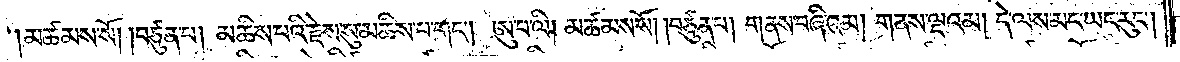།མཚམས་སོ། །བཙུན་པ། མཆིས་པའི་རྗེས་སུ་མཆིས་པ་གང༌། ཨུ་པ་ལི། མཚམས་སོ། །བཙུན་པ། གནས་བཞིའམ། གནས་ལྔའམ། དེ་ལས་མང་ཡང་རུང༌།
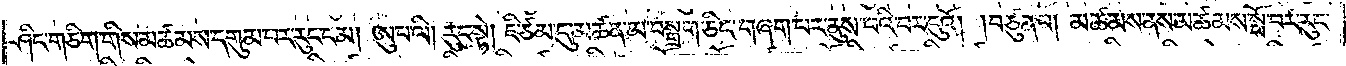ཤིང་གཅིག་གིས་མཚམས་དགུམ་པར་རུང་ངམ། ཨུ་པ་ལི། རུང་སྟེ། ཇི་ཙམ་དུ་མཚན་མ་བསྒྲག་ཅིང་གཞག་པར་ནུས་པའི་བར་དུའོ། །བཙུན་པ། མཚམས་ནས་མཚམས་སྤོ་བར་རུང་
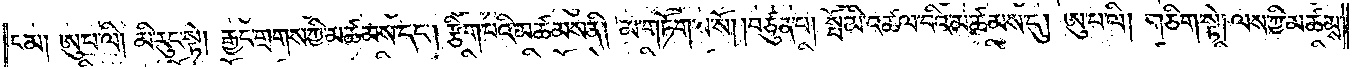ངམ། ཨུ་པ་ལི། མི་རུང་སྟེ། རྒྱང་གྲགས་ཀྱི་མཚམས་དང༌། རྩིག་པའི་མཚམས་ནི། མ་གཏོགས་སོ། །བཙུན་པ། སྤོ་མི་འཚལ་བའི་མཚམས་དུ། ཨུ་པ་ལི། གཅིག་སྟེ། ལས་ཀྱི་མཚམས་
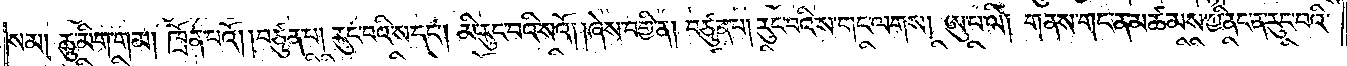སམ། ཆུ་མིག་གམ། ཁྲོན་པའོ། །བཙུན་པ། རུང་བའི་ས་དང༌། མི་རུང་བའི་སའོ། །ཞེས་བགྱི་ན། བཙུན་པ། རུང་བའི་ས་གང་ལགས། ཨུ་པ་ལི། གནས་གང་ན་མཚམས་ཀྱི་ནང་ན་རུང་བའི་
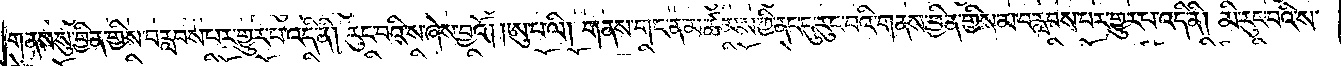གནས་སུ་བྱིན་གྱིས་བརླབས་པར་གྱུར་པ་འདི་ནི། རུང་བའི་ས་ཞེས་བྱའོ། །ཨུ་པ་ལི། གནས་གང་ན་མཚམས་ཀྱི་ནང་དུ་རུང་བའི་གནས་བྱིན་གྱིས་མ་བརླབས་པར་གྱུར་པ་འདི་ནི། མི་རུང་བའི་ས་
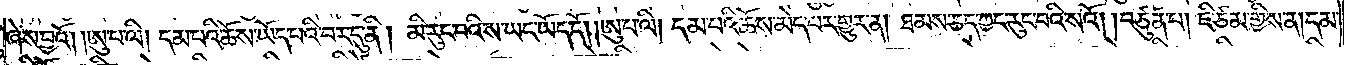ཞེས་བྱའོ། །ཨུ་པ་ལི། དམ་པའི་ཆོས་ཡོད་པའི་བར་དུ་ནི། མི་རུང་བའི་ས་ཡང་ཡོད་དོ། །ཨུ་པ་ལི། དམ་པའི་ཆོས་མེད་པར་གྱུར་ན། ཐམས་ཅད་ཀྱང་རུང་བའི་སའོ། །བཙུན་པ། ཇི་ཙམ་གྱིས་ན། དམ་
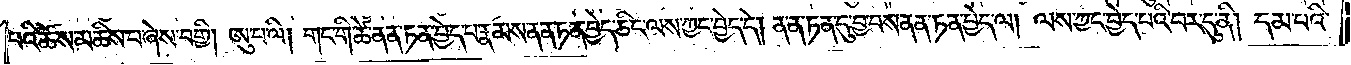པའི་ཆོས་མཆིས་པ་ཞེས་བགྱི། ཨུ་པ་ལི། གང་གི་ཚེ་ནན་ཏན་བྱེད་པ་རྣམས་ནན་ཏན་བྱེད་ཅིང་ལས་ཀྱང་བྱེད་དེ། ནན་ཏན་དུ་བྱ་བས་ནན་ཏན་བྱེད་ལ། ལས་ཀྱང་བྱེད་པའི་བར་དུ་ནི། དམ་པའི་
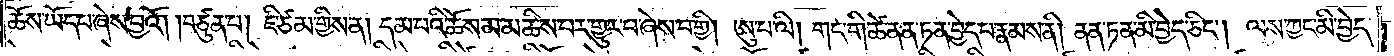ཆོས་ཡོད་པ་ཞེས་བྱའོ། །བཙུན་པ། ཇི་ཙམ་གྱིས་ན། དམ་པའི་ཆོས་མ་མཆིས་པར་གྱུར་པ་ཞེས་བགྱི། ཨུ་པ་ལི། གང་གི་ཚེ་ནན་ཏན་བྱེད་པ་རྣམས་ནི། ནན་ཏན་མི་བྱེད་ཅིང༌། ལས་ཀྱང་མི་བྱེད་
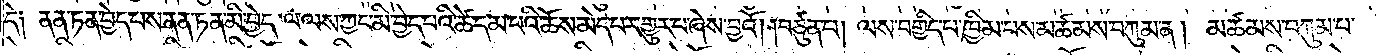དེ། ནན་ཏན་བྱེད་པས་ནན་ཏན་མི་བྱེད་ལ་ལས་ཀྱང་མི་བྱེད་པའི་ཚེ་དམ་པའི་ཆོས་མེད་པར་གྱུར་པ་ཞེས་བྱའོ། །བཙུན་པ། ལས་བགྱིད་པ་ཁྱིམ་པས་མཚམས་བཀུམ་ན། མཚམས་བཀུམ་པ་
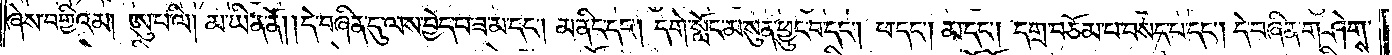ཞེས་བགྱིའམ། ཨུ་པ་ལི། མ་ཡིན་ནོ། །དེ་བཞིན་དུ་ལས་བྱེད་པ་ཟ་མ་དང༌། མ་ནིང་དང༌། དགེ་སློང་མ་སུན་ཕྱུང་བ་དང༌། ཕ་དང༌། མ་དང༌། དགྲ་བཅོམ་པ་བསད་པ་དང༌། དེ་བཞིན་གཤེགས་
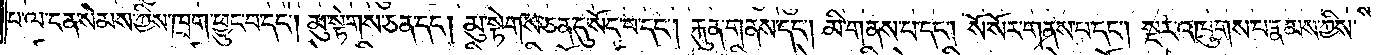པ་ལ་ངན་སེམས་ཀྱིས་ཁྲག་ཕྱུང་བ་དང༌། མུ་སྟེགས་ཅན་དང༌། མུ་སྟེགས་ཅན་དུ་སོང་བ་དང༌། རྐུན་གནས་དང༌། མི་གནས་པ་དང༌། སོ་སོར་གནས་པ་དང༌། སྔར་འཁྲུགས་པ་རྣམས་ཀྱིས་
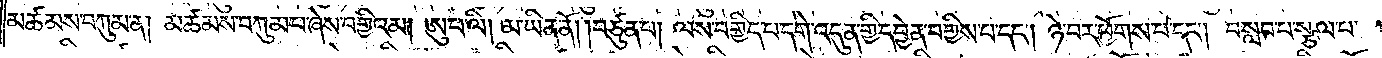མཚམས་བཀུམ་ན། མཚམས་བཀུམ་པ་ཞེས་བགྱིའམ། ཨུ་པ་ལི། མ་ཡིན་ནོ། །བཙུན་པ། ལས་བགྱིད་པ་དགེ་འདུན་གྱི་དབྱེན་བགྱིས་པ་དང༌། ཉེ་བར་ཕྱོགས་པ་དང༌། བསླབ་པ་སྩལ་པ་
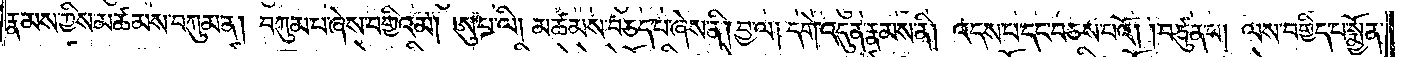རྣམས་ཀྱིས་མཚམས་བཀུམ་ན། བཀུམ་པ་ཞེས་བགྱིའམ། ཨུ་པ་ལི། མཚམས་བཅད་པ་ཞེས་ནི། བྱ་ལ། དགེ་འདུན་རྣམས་ནི། འདས་པ་དང་བཅས་པའོ། །བཙུན་པ། ལས་བགྱིད་པ་སྨྱོན་
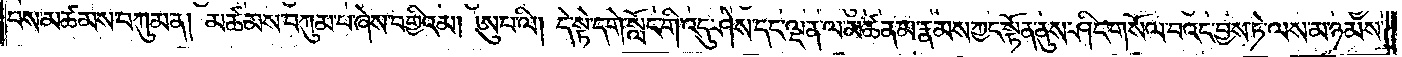པས་མཚམས་བཀུམ་ན། མཚམས་བཀུམ་པ་ཞེས་བགྱིའམ། ཨུ་པ་ལི། དེ་སྟེ་དགེ་སློང་གི་འདུ་ཤེས་དང་ལྡན་ལ་མཚན་མ་རྣམས་ཀྱང་སྟོན་ནུས་ཤིང་གསོལ་བའང་བྱས་ཏེ་ལས་མ་ཉམས་
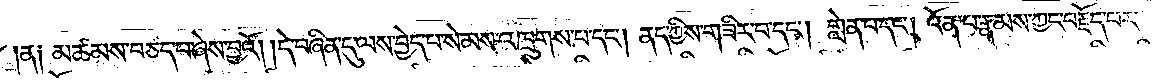།ན། མཚམས་བཅད་པ་ཞེས་བྱའོ། །དེ་བཞིན་དུ་ལས་བྱེད་པ་སེམས་འཁྲུགས་པ་དང༌། ནད་ཀྱིས་གཟིར་བ་དང༌། གླེན་པ་དང༌། འོན་པ་རྣམས་ཀྱང་བརྗོད་པར་
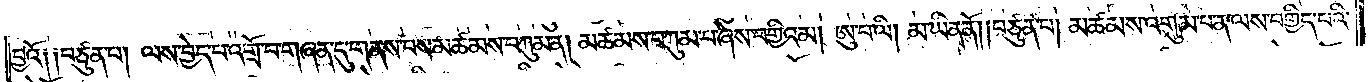བྱའོ། །བཙུན་པ། ལས་བྱེད་པ་འགྲོ་བ་གཞན་དུ་གནས་པས་མཚམས་བཀུམ་ན། མཚམས་བཀུམ་པ་ཞེས་བགྱིའམ། ཨུ་པ་ལི། མ་ཡིན་ནོ། །བཙུན་པ། མཚམས་འགུམ་པ་ན་ལས་བགྱིད་པའི་
